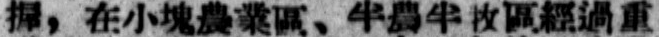握，在小塊農業區、半農半牧區經濟重
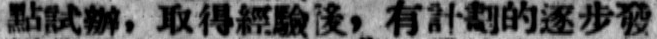點試辦，取得經驗後，有計劃的逐步發
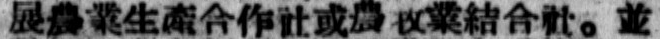展農業生產合作社活農牧業結合社。並
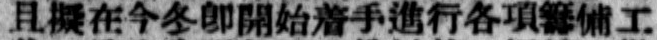且擬在今冬卽開始着手進行各種籌備工
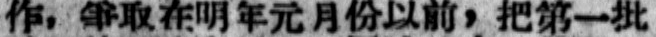作，爭取在明年元月份以前，把第一批
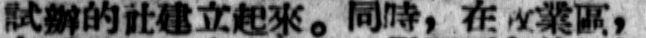試辦的社建立起來。同時，在牧業區，
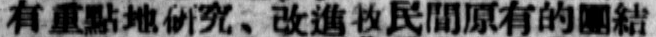有重點地研究、改進牧民間原有的團結
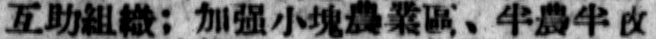互助組織；加強小塊農業區、半農半牧
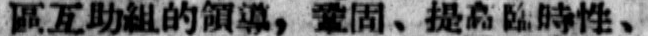曲互助組的領導，鞏固、提高臨時性、
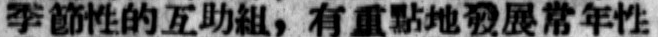季節性的互助組，有重點地發展常年性
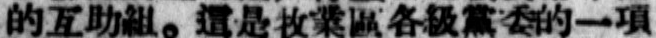的互助組。這是牧業區各級黨委的一項
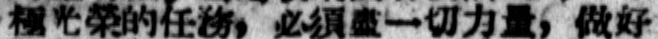機光榮的任務，必須盡一切力量，做好
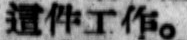這件工作。
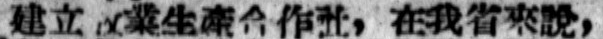建立牧業生產合作社，在我省來說，
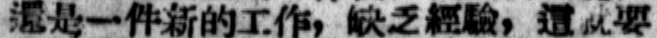還是一件新的工作，缺乏經驗，這就要
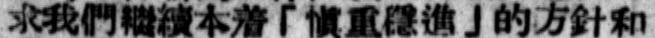求我們繼續本着「愼重穩進」的方針和
